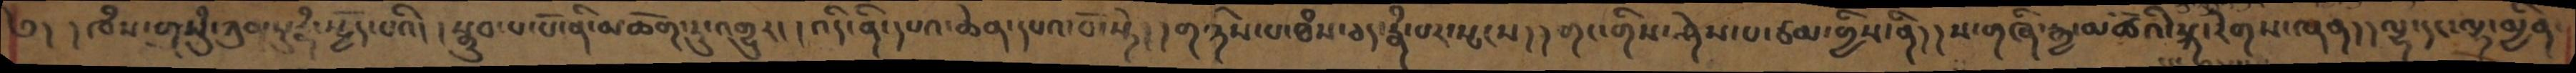བ། །ཁཾས་གསུཾ་ཀུན་ཏུ་རྣཾ་སྤྱོད་པའི། །སྒྲུབ་པ་པོ་ནི་མཆོག་ཏུ་འགྱུར། །འདི་ནི་དཔའ་ཆེན་དཔའ་བོ་སྟེ། །གཉིས་པ་ཐཾས་ཅད་རྣཾ་པར་སྤངས། །གང་གིས་ཤེས་པ་ཙམ་གྱིས་ནི། །ས་གཞི་རྒྱ་མཚོའི་སྐ་རེགས་ཞན། །ལྷ་དང་ལྷ་མྱིན་
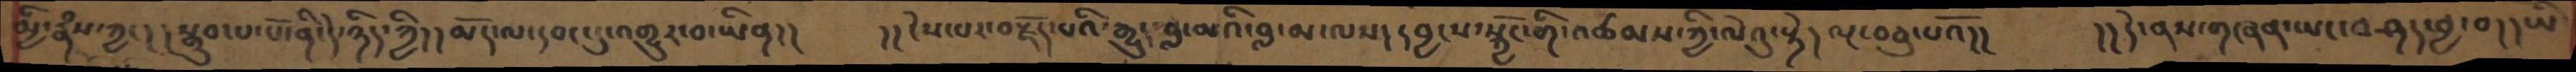མྱི་རྣཾས་ཀྱང།།སྒྲུབ་པ་པོ་ནི་དེ་ཉིད་ཀྱི།།མོད་ལ་དབང་དུ་འགྱུར་བ་ཡིན།།   །།ངེས་པར་བརྗོད་པའི་རྒྱུད་བླ་མའི་བླ་མ་ལས། དབྱངས་སྐྱོང་གི་འཚམས་ཀྱི་ལེའུ་སྟེ། ལྔ་བཅུ་པའོ།།    །།དེ་ནས་གཞན་ཡང་བཤད་བྱ་བ།།ཡི
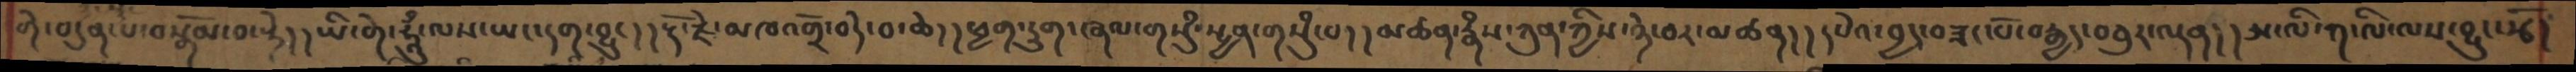གེ་བདུན་པ་བསྒོམ་བ་སྟེ། །ཡི་གེ་ཧཱུྃ་ལས་ཡང་དག་བྱུང། །རྡོ་རྗེ་མཁའགྲོ་བདེ་བ་ཆེ། །ཕྱག་དྲུག་ཞལ་གསུཾ་སྤྱན་གསུཾ་པ། །མཚན་རྣཾས་ཀུན་གྱིས་ཉེ་བར་མཚན། །དཔེའ་བྱད་བཟང་པོ་བརྒྱད་བཅུར་ལྡན། །ཨ་ལི་ཀ་ལི་ལས་བྱུང་རྩོ།
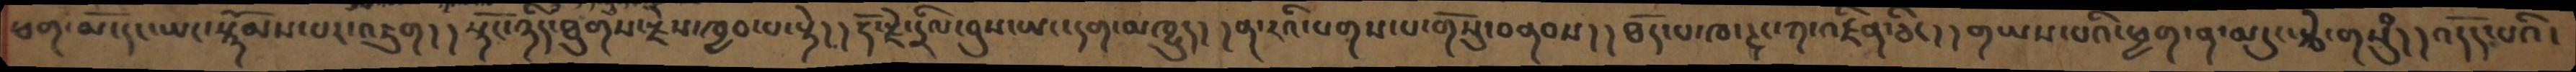ཕག་མོ་དང་ཡང་སྙོམས་པར་འཇུག། །སྟོང་ཉིད་ཐུགས་རྗེས་ཁྱབ་པ་སྟེ། །རྡོ་རྗེ་དྲིལ་བུས་ཡང་དག་མཁྱུད། །ན་རའི་པགས་པ་གོསུ་བནབས། །ཐོད་པ་ཁ་ཊྭང་ཀ་འཛིན་ཅིང། །གཡས་པའི་ཕྱག་ན་མདུང་རྩེ་གསུཾ། །འདོད་པའི་
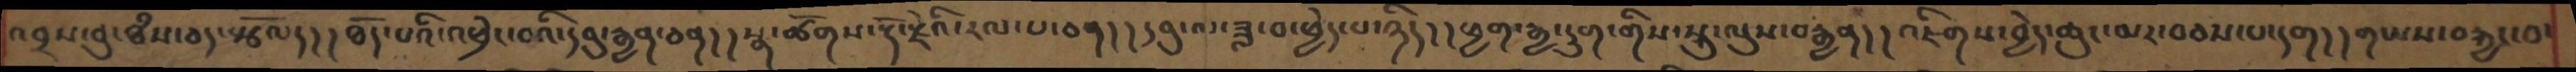འབྲས་བུ་ཐཾས་ཅད་སྩོལད། །ཐོད་པའི་འཕྲེང་བའི་དབུ་རྒྱན་ཅན། །སྣ་ཚོགས་རྡོ་རྗེའི་རལ་པ་ཅན། །དབུ་ལ་ཟླ་བ་ཕྱེད་པ་ཉིད། །ཕྱག་རྒྱ་དྲུག་གིས་སྐུ་ལུས་བརྒྱན། །འཇིགས་བྱེད་ཆུང་མར་བཅས་པ་དག། །གཡས་བརྐྱང་བ་
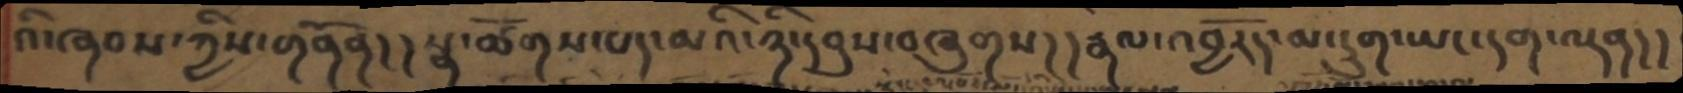འི་ཞབས་ཀྱིས་གནོན། །སྣ་ཚོགས་པད་མའི་ཉི་དབུས་བཞུགས། །རྣལ་འབྱོརད་མ་དྲུག་ཡང་དག་ལྡན།།
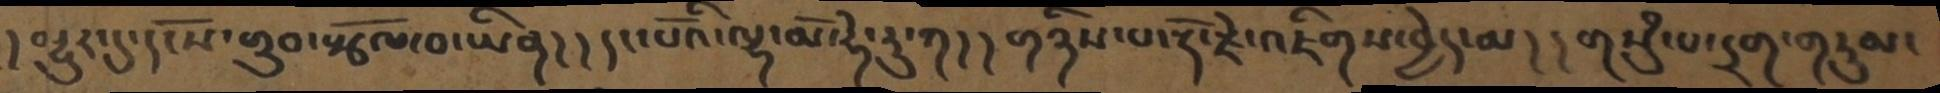། མྱུར་དུ་དངོས་གྲུབ་སྩོལ་བ་ཡིན། །དང་པོའི་ལྷ་མོ་ཧེ་རུ་ཀ། །གཉིས་པ་རྡོ་རྗེ་འཇིགས་བྱེད་མ། །གསུཾ་པ་དྲག་གཏུམ་
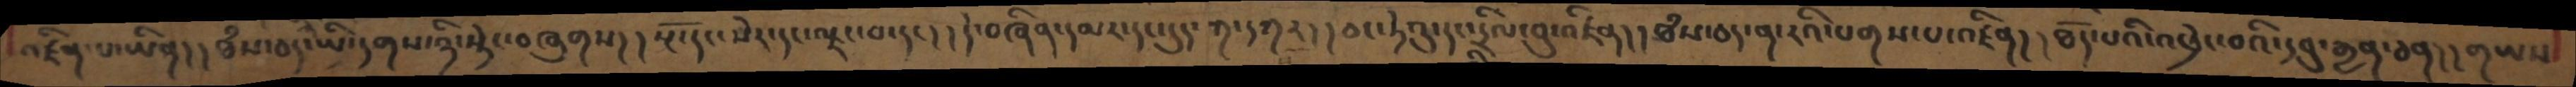འཛིན་པ་ཡིན།། ཐཾས་ཅད་ཡི་དགས་ཉི་སྡེང་བཞུགས།།སྔོ་དང་སེར་དང་ལྗང་བ་དང།།དེ་བཞིན་དམར་དང་དུད་ཀ་དཀར།།ཅང་ཏེའུ་དང་དྲིལ་བུ་འཛིན།།ཐཾས་ཅད་ན་རའི་པགས་པ་འཛིན།།ཐོད་པའི་འཕྲེང་བའི་དབུ་རྒྱན་ཅན།།གཡས
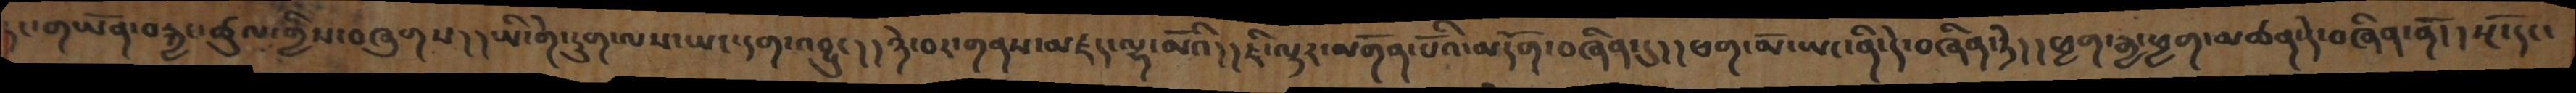དང་གཡོན་བརྐྱང་ཚུལ་གྱིས་བཞུགས། །ཡི་གེ་དྲུག་ལས་ཡང་དག་འབྱུང། །ཉེ་བར་གནས་མཛད་ལྷ་མོའི་།།ཇི་ལྟར་མགོན་པོའི་མདོག་བཞིན་དུ།།ཕག་མོ་ཡང་ནི་དེ་བཞིན་ཏེ།།ཕྱག་རྒྱ་ཕྱག་མཚན་དེ་བཞིན་ནོ།།སྔོ་དང་
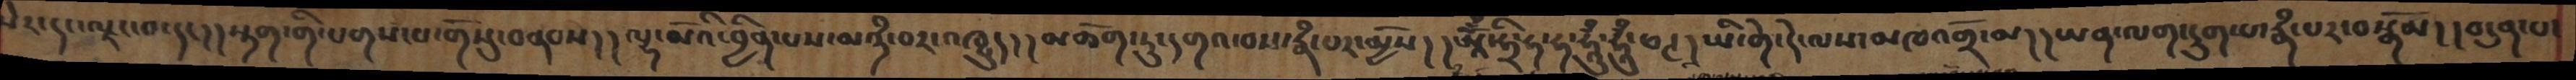སེར་དང་ལྗང་བ་དང།།སྟག་གི་པགས་པ་གོསུ་བནབས།།ལྷ་མོའི་བྱིན་པས་མཉཾ་བར་འཁྱུད།།མཆོག་ཏུ་དགའ་བས་རྣཾ་པར་མྱོས།།ཨཱོྃ་ཧྲི་ཧ་ཧ་ཧཱུྃ་ཧཱུྃ་ཕཊ། ཡི་གེ་དེ་ལས་མཁའགྲོ་མ།།ཡན་ལག་དྲུག་པ་རྣཾ་པར་བསྒོམ།།བདུན་པ་
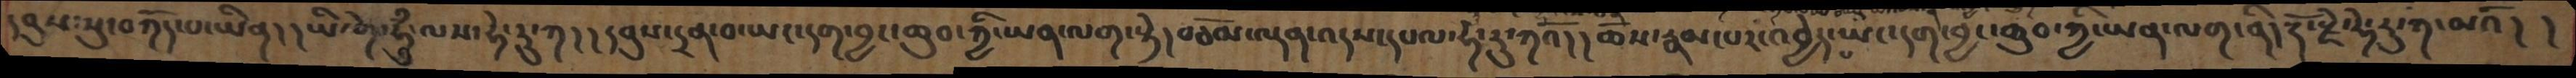དབུས་སུ་བཀོད་པ་ཡིན། །ཡི་གེ་ཧཱུྃ་ལས་ཧེ་རུ་ཀ། །དབུས་དྲན་བ་ཡང་དག་བྱང་ཆུབ་ཀྱི་ཡན་ལག་སྟེ། བཅོམ་ལྡན་འདས་དཔལ་ཧེ་རུ་ཀའོ། །ཆོས་རྣམ་པར་འབྱེད་པ་ཡང་དག་བྱང་ཆུབ་ཀྱི་ཡན་ལག་ནི། རྡོ་རྗེ་ཧེ་རུ་ཀ་མའོ། །
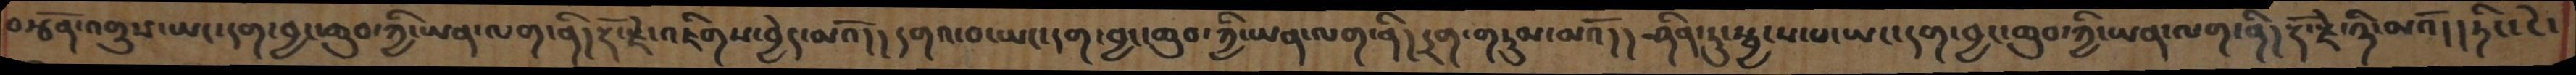བརྩོན་འགྲུས་ཡང་དག་བྱང་ཆུབ་ཀྱི་ཡན་ལག་ནི།རྡོ་རྗེ་འཇིགས་བྱེད་མའོ།། དགའ་བ་ཡང་དག་བྱང་ཆུབ་ཀྱི་ཡན་ལག་ནི།དྲག་གཏུམ་མའོ།། ཤིན་ཏུ་སྦྱངས་པ་ཡང་དག་བྱང་ཆུབ་ཀྱི་ཡན་ལག་ནི། རྡོ་རྗེ་ཉི་མའོ།།ཏིང་ངེ་
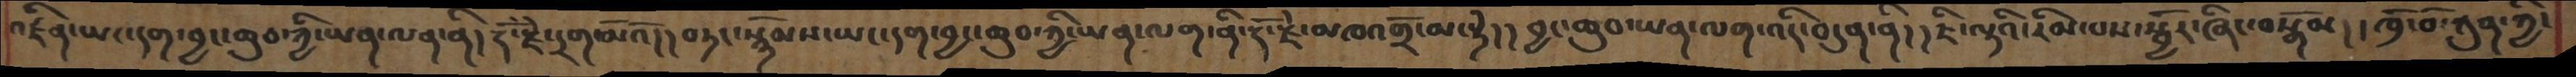འཛིན་ཡང་དག་བྱང་ཆུབ་ཀྱི་ཡན་ལག་ནི། རྡོ་རྗེ་དྲག་མོའོ།། བཏང་སྙོམས་ཡང་དག་བྱང་ཆུབ་ཀྱི་ཡན་ལག་ནི་རྡོ་རྗེ་མཁའགྲོ་མ་སྟེ།། བྱང་ཆུབ་ཡན་ལག་འདི་བདུན་ནི། །ཇི་ལྟའི་རིམ་པས་སྦྱོར་ཞིང་བསྒོམ།།ཁྲོ་བོ་ཀུན་ཀྱི་
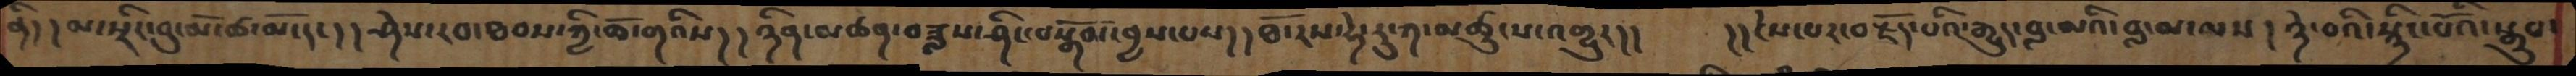ནི།། མ་སྲིང་བུ་མོ་ཚ་མོ་དང།། ཤེས་རབ་ཐབས་ཀྱི་ཆོ་གའིས།། ཉིན་མཚན་བཟླས་ཤིང་བསྒོམ་བྱས་པས།། ཐོ་རས་ཧེ་རུ་ཀ་མཚུངས་འགྱུར།།  །།ངེས་པར་བརྗོད་པའི་རྒྱུད་བླ་མའི་བླ་མ་ལས ། ཉེ་བའི་སྙིང་པོའི་སྒྲུབ་
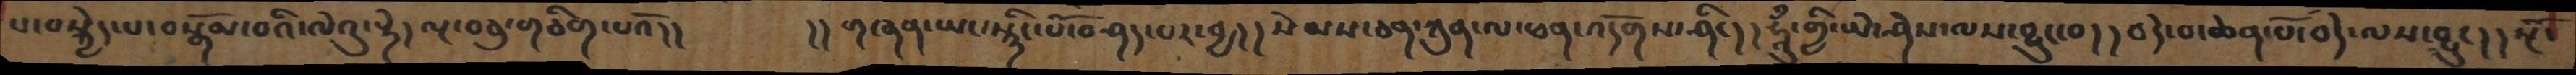པ་བསྐྱེད་པ་བསྒོམ་བའི་ལེའུ་སྡེ། ལྔ་བཅུ་གཅིག་པའོ།།    །། གཞན་ཡང་སྙིང་པོ་བཤད་པར་བྱ།།སེམས་ཅན་ཀུན་ལ་ཕན་འདོགས་ཤིང།།ཧཱུྃ་གྱི་ཡེ་ཤེས་ལས་བྱུང་བ།།བདེ་བ་ཆེན་པོ་བདེ་ལས་བྱུང།།སྔོ་
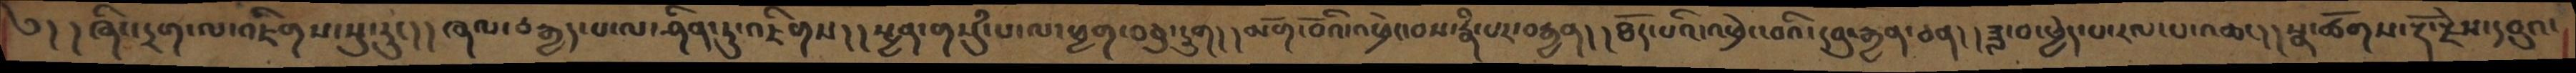༅། ། ཞིང་དྲག་ལ་འཇིགས་སུ་རུང།། ཞལ་བརྒྱད་པ་ལ་ཤིན་ཏུ་འཇིགས།།སྤྱན་གསུཾ་པ་ལ་ཕྱག་བཅུ་དྲུག།།མགོ་བོའི་འཕྲེང་བས་རྣཾ་པར་བརྒྱན།།ཐོད་པའི་འཕྲེང་བའི་དབུ་རྒྱན་ཅན།།ཟླ་བ་ཕྱེད་པ་རལ་པ་འཆང།།སྣ་ཚོགས་རྡོ་རྗེས་དབུའ་
